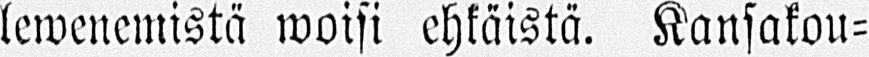lewenemistä woisi ehkäistä. Kansakou-
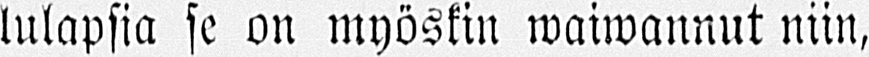lulapsia se on myöskin waiwannut niin,
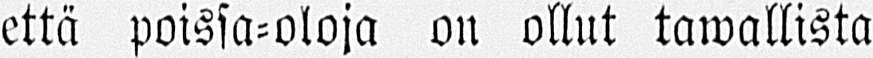että poissa-oloja on ollut tawallista
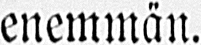enemmän.
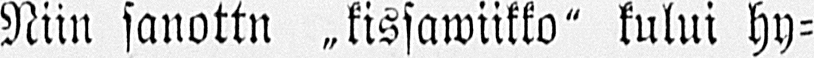Niin sanottn „kissawiikko" kului hy-
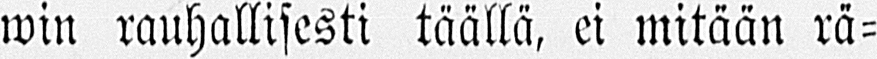win rauhallisesti täällä, ei mitään rä-
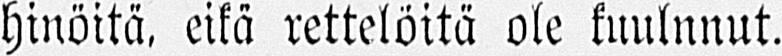hinöitä, eikä rettelöitä ole kuulnnut.
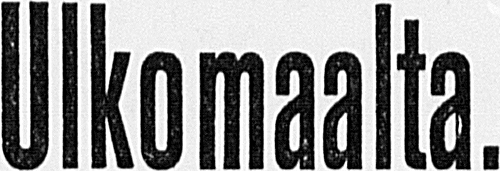Ulkomaalta.
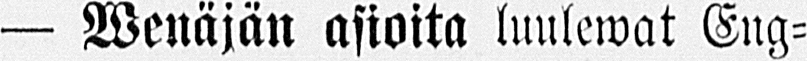— Wenäjän asioita luulewat Eng-
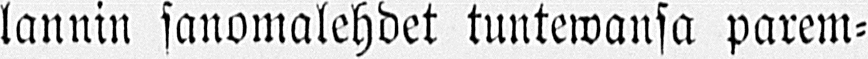lannin sanomalehdet tuntewansa parem-
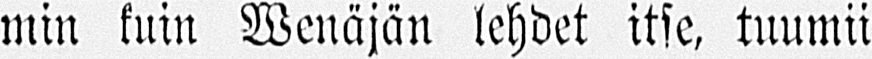min kuin wenäjän lehdet itse, tuumii
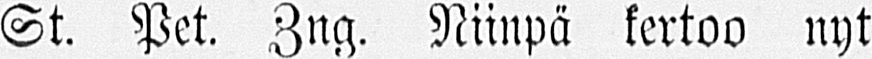St. Pet. Zng. Niinpä kertoo nyt
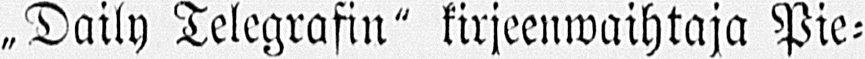„Daily Telegrafin" kirjeenwaihtaja Pie-
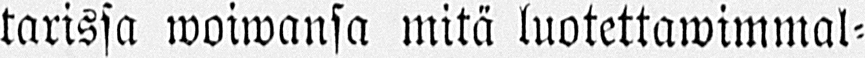tarissa woiwansa mitä luotettawimmal-
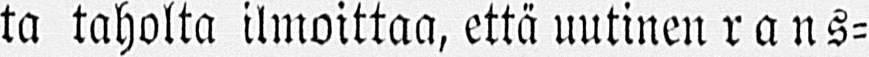ta taholta ilmoittaa, että uutinen rans-
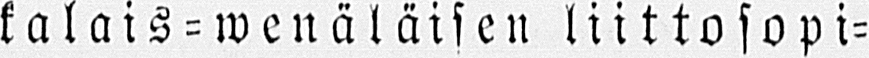kalais - wenäläisen liittosopi-
